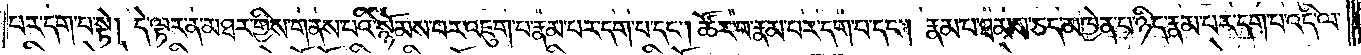པར་དག་པ་སྟེ། དེ་ལྟར་ན་མཐར་གྱིས་གནས་པའི་སྙོམས་པར་འཇུག་པ་རྣམ་པར་དག་པ་དང༌། ཚོར་བ་རྣམ་པར་དག་པ་དང༌། རྣམ་པ་ཐམས་ཅད་མཁྱེན་པ་ཉིད་རྣམ་པར་དག་པ་འདི་ལ་
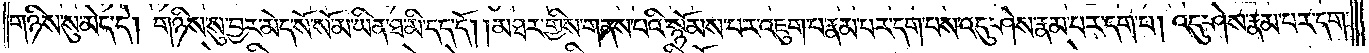གཉིས་སུ་མེད་དེ། གཉིས་སུ་བྱར་མེད་སོ་སོ་མ་ཡིན་ཐ་མི་དད་དོ། །མཐར་གྱིས་གནས་པའི་སྙོམས་པར་འཇུག་པ་རྣམ་པར་དག་པས་འདུ་ཤེས་རྣམ་པར་དག་པ། འདུ་ཤེས་རྣམ་པར་དག་
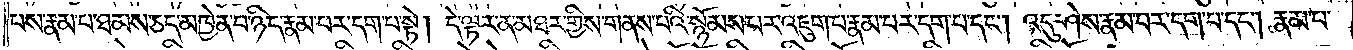པས་རྣམ་པ་ཐམས་ཅད་མཁྱེན་པ་ཉིད་རྣམ་པར་དག་པ་སྟེ། དེ་ལྟར་ན་མཐར་གྱིས་གནས་པའི་སྙོམས་པར་འཇུག་པ་རྣམ་པར་དག་པ་དང༌། འདུ་ཤེས་རྣམ་པར་དག་པ་དང༌། རྣམ་པ་
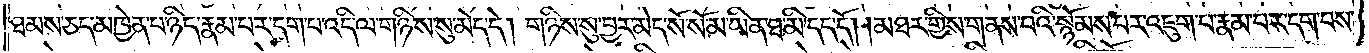ཐམས་ཅད་མཁྱེན་པ་ཉིད་རྣམ་པར་དག་པ་འདི་ལ་གཉིས་སུ་མེད་དེ། གཉིས་སུ་བྱར་མེད་སོ་སོ་མ་ཡིན་ཐ་མི་དད་དོ། །མཐར་གྱིས་གནས་པའི་སྙོམས་པར་འཇུག་པ་རྣམ་པར་དག་པས་
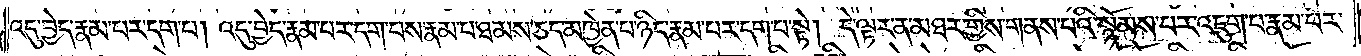འདུ་བྱེད་རྣམ་པར་དག་པ། འདུ་བྱེད་རྣམ་པར་དག་པས་རྣམ་པ་ཐམས་ཅད་མཁྱེན་པ་ཉིད་རྣམ་པར་དག་པ་སྟེ། དེ་ལྟར་ན་མཐར་གྱིས་གནས་པའི་སྙོམས་པར་འཇུག་པ་རྣམ་པར་
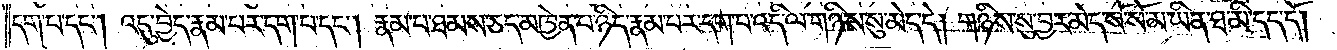དག་པ་དང༌། འདུ་བྱེད་རྣམ་པར་དག་པ་དང༌། རྣམ་པ་ཐམས་ཅད་མཁྱེན་པ་ཉིད་རྣམ་པར་དག་པ་འདི་ལ་གཉིས་སུ་མེད་དེ། གཉིས་སུ་བྱར་མེད་སོ་སོ་མ་ཡིན་ཐ་མི་དད་དོ། །
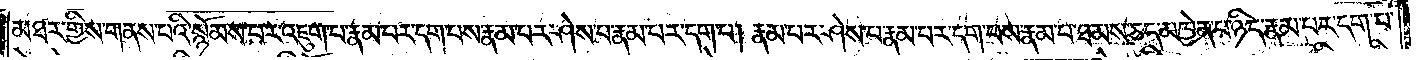མཐར་གྱིས་གནས་པའི་སྙོམས་པར་འཇུག་པ་རྣམ་པར་དག་པས་རྣམ་པར་ཤེས་པ་རྣམ་པར་དག་པ། རྣམ་པར་ཤེས་པ་རྣམ་པར་དག་པས་རྣམ་པ་ཐམས་ཅད་མཁྱེན་པ་ཉིད་རྣམ་པར་དག་པ་
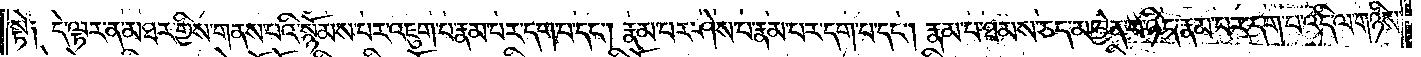སྟེ༑ དེ་ལྟར་ན་མཐར་གྱིས་གནས་པའི་སྙོམས་པར་འཇུག་པ་རྣམ་པར་དག་པ་དང༌། རྣམ་པར་ཤེས་པ་རྣམ་པར་དག་པ་དང༌། རྣམ་པ་ཐམས་ཅད་མཁྱེན་པ་ཉིད་རྣམ་པར་དག་པ་འདི་ལ་གཉིས་
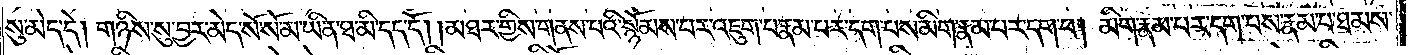སུ་མེད་དེ། གཉིས་སུ་བྱར་མེད་སོ་སོ་མ་ཡིན་ཐ་མི་དད་དོ། །མཐར་གྱིས་གནས་པའི་སྙོམས་པར་འཇུག་པ་རྣམ་པར་དག་པས་མིག་རྣམ་པར་དག་པ། མིག་རྣམ་པར་དག་པས་རྣམ་པ་ཐམས་
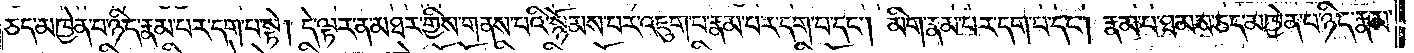ཅད་མཁྱེན་པ་ཉིད་རྣམ་པར་དག་པ་སྟེ། དེ་ལྟར་ན་མཐར་གྱིས་གནས་པའི་སྙོམས་པར་འཇུག་པ་རྣམ་པར་དག་པ་དང༌། མིག་རྣམ་པར་དག་པ་དང༌། རྣམ་པ་ཐམས་ཅད་མཁྱེན་པ་ཉིད་རྣམ་
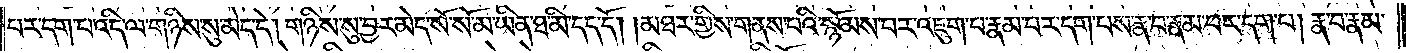པར་དག་པ་འདི་ལ་གཉིས་སུ་མེད་དེ། གཉིས་སུ་བྱར་མེད་སོ་སོ་མ་ཡིན་ཐ་མི་དད་དོ། །མཐར་གྱིས་གནས་པའི་སྙོམས་པར་འཇུག་པ་རྣམ་པར་དག་པས་རྣ་བ་རྣམ་པར་དག་པ། རྣ་བ་རྣམ་
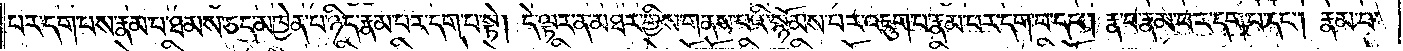པར་དག་པས་རྣམ་པ་ཐམས་ཅད་མཁྱེན་པ་ཉིད་རྣམ་པར་དག་པ་སྟེ། དེ་ལྟར་ན་མཐར་གྱིས་གནས་པའི་སྙོམས་པར་འཇུག་པ་རྣམ་པར་དག་པ་དང༌། རྣ་བ་རྣམ་པར་དག་པ་དང༌། རྣམ་པ་
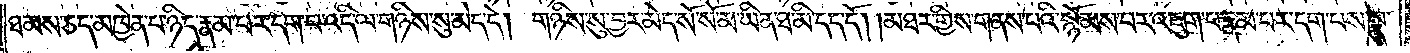ཐམས་ཅད་མཁྱེན་པ་ཉིད་རྣམ་པར་དག་པ་འདི་ལ་གཉིས་སུ་མེད་དེ། གཉིས་སུ་བྱར་མེད་སོ་སོ་མ་ཡིན་ཐ་མི་དད་དོ། །མཐར་གྱིས་གནས་པའི་སྙོམས་པར་འཇུག་པ་རྣམ་པར་དག་པས་སྣ་
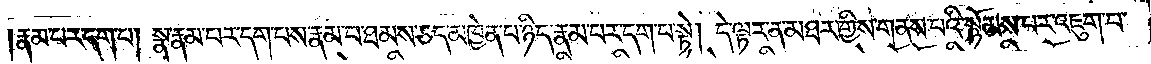རྣམ་པར་དག་པ། སྣ་རྣམ་པར་དག་པས་རྣམ་པ་ཐམས་ཅད་མཁྱེན་པ་ཉིད་རྣམ་པར་དག་པ་སྟེ། དེ་ལྟར་ན་མཐར་གྱིས་གནས་པའི་སྙོམས་པར་འཇུག་པ་
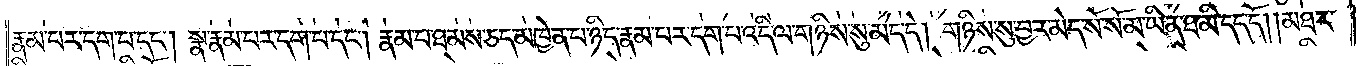རྣམ་པར་དག་པ་དང༌། སྣ་རྣམ་པར་དག་པ་དང༌། རྣམ་པ་ཐམས་ཅད་མཁྱེན་པ་ཉིད་རྣམ་པར་དག་པ་འདི་ལ་གཉིས་སུ་མེད་དེ། གཉིས་སུ་བྱར་མེད་སོ་སོ་མ་ཡིན་ཐ་མི་དད་དོ། །མཐར་
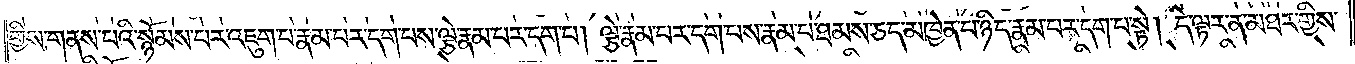གྱིས་གནས་པའི་སྙོམས་པར་འཇུག་པ་རྣམ་པར་དག་པས་ལྕེ་རྣམ་པར་དག་པ། ལྕེ་རྣམ་པར་དག་པས་རྣམ་པ་ཐམས་ཅད་མཁྱེན་པ་ཉིད་རྣམ་པར་དག་པ་སྟེ། དེ་ལྟར་ན་མཐར་གྱིས་
